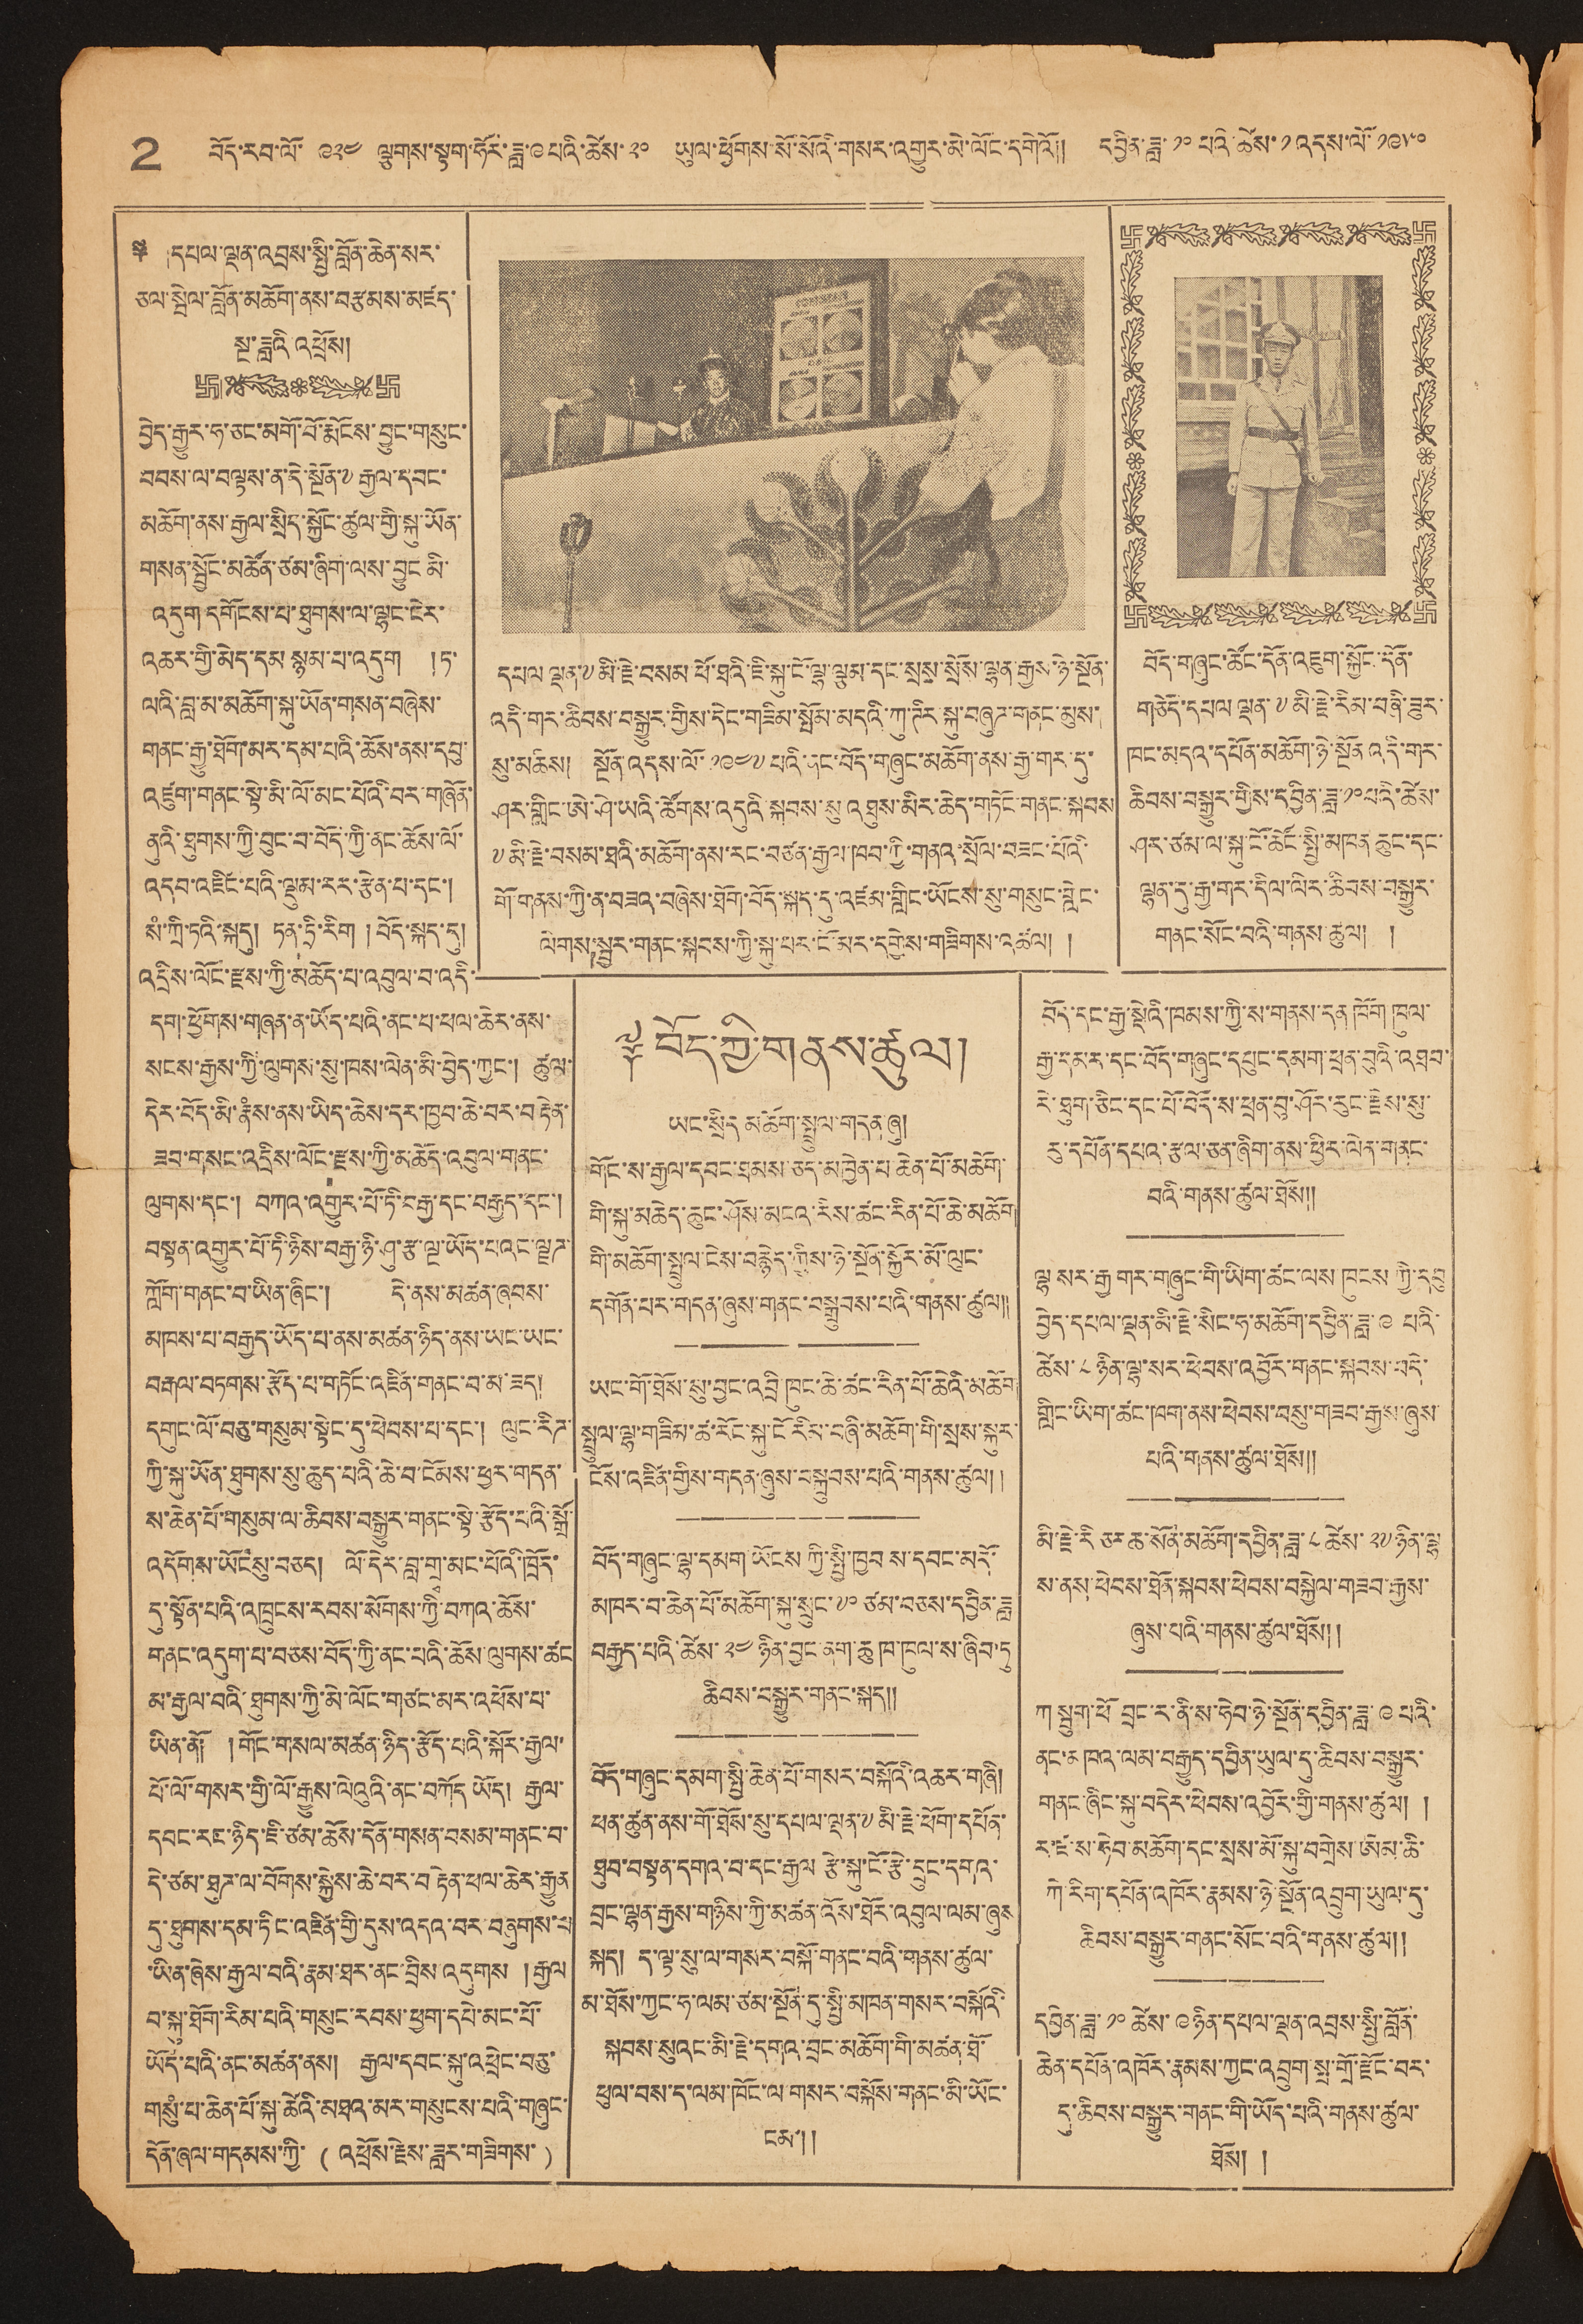2 བོད་རབ་ལོ་ ༩༢༤ ལྕགས་སྟག་ཧོར་ཟླ་ ༩ པའི་ཚེས་ ༢༠ ཡུལ་ཕྱོགས་སོ་སོའི་གསར་འགྱུར་མེ་ལོང་དགེའོ།། དབྱིན་ཟླ་ ༡༠ པའི་ཚེས་ ༡ འདས་ལོ་ ༡༩༥༠
༈ །དཔལ་ལྡན་འབྲས་སྤྱི་འབྲས་བློན་ཆེན་སར་
ཅལ་སྦེལ་བློན་མཆོག་ནས་བརྩམས་མཛད་
སྔ་ཟླའི་འཕྲོས།
བྱེད་རྒྱུར་ཧ་ཅང་མགོ་བོ་རྨོངས་བྱུང་གསུང་
བབས་ལ་བལྟས་ན་དེ་སྔོན་༸རྒྱལ་དབང་
མཆོག་ནས་རྒྱལ་སྲིད་སྐྱོང་ཚུལ་གྱི་སྐུ་ཡོན་
གསན་སྦྱོང་མཚོན་ཙམ་ཞིག་ལས་བྱུང མི་
འདུག་དགོངས་པ་ཐུགས་ལ་ལྷང་ངེར་
འཆར་གྱི་མེད་དམ སྙམ་པ་འདུག །ཏ་
ལའི་བླ་མ་མཆོག་སྐུ་ཡོན་གསན་བཞེས་
གནང་རྒྱུ་ཐོག་མར་དམ་པའི་ཆོས་ནས་དབུ་
འཛུག་གནང་སྟེ་མི་ལོ་མང་པོའི་བར་གཞོན་
ནུའི་ཐུགས་ཀྱི་བུང་བ་བོད་ཀྱི་ནང་ཆོས་ལོ་
འདབ་འཛིང་པའི་ལྡུམ་རར་རྩེན་པ་དང་།
སཾ་ཀྲི་ཏའི་སྐདུ། ཏན་ཏྲི་རིག །བོད་སྐད་དུ།
འདྲིས་ལོང་རྫས་ཀྱི་མཆོད་པ་འབུལ་བ་འདི་
དག་ཕྱོགས་གཞན་ན་ཡོན་པའི་ནང་པ་ཕལ་ཆེར་ནས་
སངས་རྒྱས་ཀྱི་ལུགས་སུ་ཁས་ལེན་མི་བྱེད་ཀྱང་། ཚུལ་
དེར་བོད་མི་རྣཾས་ནས་ཡིད་ཆེས་དར་ཁྱབ་ཆེ་བར་བརྟེན་
ཟབ་གསང་འདྲིས་ལོང་རྫས་ཀྱི་མཆོད་འབུལ་གནང་
ལུགས་དང་། བཀའ་འགྱུར་པོ་ཏི་བརྒྱ་དང་བརྒྱད་དང་།
བསྟན་འགྱུར་པོ་ཏི་ཉིས་བརྒྱ་ཉི་ཤུ་རྩ་ལྔ་ཡོད་པའང་ལྗཊ་
ཀློག་གནང་བ་ཡིན་ཞིང་། དེ་ནས་མཚན་ཞབས་
མཁས་པ་བརྒྱད་ཡོད་པ་ནས་མཚན་ཉིད་ནས་ཡང་ཡང་
བརྒལ་བཏགས་རྩོད་པ་གཏོང་འཛིན་གནང་བ་མ་ཟད།
དགུང་ལོ་བཅུ་གསུམ་སྟེང་དུ་ཕེབས་པ་དང་། ལུང་རིཊ་
ཀྱི་སྐུ་ཡོན་ཐུགས་སུ་ཆུད་པའི་ཆེ་བ་ངོམས་ཕྱར་གདན་
ས་ཆེན་པོ་གསུམ་ལ་ཆིབས་བསྒྱུར་གནང་སྟེ་རྩོད་པའི་སྒྲོ་
འདོགས་ཡོངསུ་བཅད། ལོ་དེར་བླ་གྲྭ་མང་པོའི་ཁྲོད་
དུ་སྟོན་པའི་འཁྲུངས་རབས་སོགས་ཀྱི་བཀའ་ཆོས་
གནང་འདུག་པ་བཅས་བོད་ཀྱི་ནང་པའི་ཆོས་ལུགས་ཚང
མ་རྒྱལ་བའི་ཐུགས་ཀྱི་མེ་ལོང་གཙང་མར་འཕོས་པ་
ཡིན་ནོ། །གོང་གསལ་མཚན་ཉིད་རྩོད་པའི་སྐོར་རྒྱལ་
པོ་ལོ་གསར་གྱི་ལོ་རྒྱུས་ལེའུའི་ནང་བཀོད ཡོད། རྒྱལ་
དབང་རང་ཉིད་ཇི་ཙམ་ཆོས་དོན་གསན་བསམ་གནང་བ་
དེ་ཙམ་ཐུཊ་ལ་བོགས་སྐྱེས་ཆེ་བར་བརྟེན་ཕལ་ཆེར་རྒྱུན་
དུ་ཐུགས་དམ་ཏིང་འཛིན་གྱི་དུས་འདའ་བར་བཞུགས་པ
ཡིན་ཞེས་རྒྱལ་བའི་རྣམ་ཐར་ནང་བྲིས འདུགས །རྒྱལ་
བ་སྐུ་ཐོག་རིམ་པའི་གསུང་རབས་ཕྱག་དཔེ་མང་པོ་
ཡོད་པའི་ནང་མཚན་ནས། རྒྱལ་དབང་སྐུ་འཕྲེང་བཅུ་
གསུཾ་པ་ཆེན་པོ་སྐུ་ཚེའི་མཐའ་མར་གསུངས་པའི་གཞུང་
དོན་ཞལ་གདམས་ཀྱི་ ( འཕྲོས་རྗེས་ཟླར་གཟིགས་ )
དཔལ ལྡན་༸མི་རྗེ་བསམ་ཕོ་ཐའི་ཇི་སྐུ་ངོ་ལྷ་ལྕམ་དང་སྲས་སྲོས་ལྷན་རྒྱས་ཉེ་སྔོན་
འདི་གར་ཆིབས་བསྒྱུར་གྱིས་དེང་གཟིམ་སྤོས་མདའི་ཀུ་ཊིར་སྐུ་བཞུཊ་གནང་མུས་
སུ་མཆིས། སྔོན་འདས་ལོ་ ༡༩༤༧ པའི་ནང་བོད་གཞུང་མཆོག་ནས་རྒྱ་གར་དུ་
ཤར་གླིང་ཨེ་ཤེ་ཡའི་ཚོགས་འདུའི་སྐབས་སུ་འཐུས་མིར་ཆེད་གཏོང་གནང་སྐབས
༸མི་རྗེ་བསམ་ཐའི་མཆོག་ནས་རང་བཙན་རྒྱལ་ཁབ་ཀྱི་གནའ་སྲོལ་བཟང་པོའི་
གོ་གནས་ཀྱི་ན་བཟའ་བཞེས་ཐོག་བོད་སྐད་དུ་འཛམ་གློང་ཡོངས་སུ་གསུང་གླེང་
ལེགས་སྦྱར་གནང་སྐབས་ཀྱི་སྐུ་པར་ངོ་མར་དགྱེས་གཟིགས་མཚལ། །
བོད་གཞུང་ཚོང་དོན་འཇུག་སྐྱོང་དོན་
གཅོད་དཔལ་ལྡན་༸མི་རྗེ་རིམ་བཞི་ཟུར་
ཁང་མདའ་དཔོན་མཆོག་ཉེ་སྔོན འདི་གར་
ཆིབས་བསྒྱུར་གྱིས་དབྱིན་ཟླ་ ༡༠ པའི་ཚེས་
ཤར་ཙམ་ལ་སྐུ་ངོ་ཚོང་སྤྱི་མཁན ཆུང་དང་
ལྷན་དུ་རྒྱ་གར་དིལ་ལིར་ཆིབས་བསྒྱུར་
གནང་སོང་བའི་གནས་ཚུལ། །
༈ བོད་ཀྱི་གནས་ཚུལ།
ཡང་སྲིད མཆོག་སྤྲུལ་གདན་ཞུ།
གོང་ས་རྒྱལ་དབང་ཐམས་ཅད་མཁྱེན་པ་ཆེན་པོ་མཆོག་
གི་སྐུ་མཆེད་ཆུང་ཤོས་མངའ་རིས་ཚང་རིན་པོ་ཆེ་མཆོག
གི་མཆོག་སྤྲུལ་ངེས་བརྙེད་ཀྱིས་ཉེ་སྔོན་སྐྱོར་མོ་ལུང་
དགོན་པར་གདན་ཞུས་གནང་བསྒྲུབས་པའི་གནས་ཚུལ།།
ཡང་གོ་ཐོས་སུ་བྱང་འབྲི་ཁུང་ཆེ་ཚང་རིན་པོ་ཆེའི་མཆོག
སྤྲུལ་ལྷ་གཟིམ་ཚང་རོང་སྐུ་ངོ་རིམ་བཞི་མཆོག་གི་སྲས་སྐུར་
ངོས་འཛིན་གྱིས་གདན་ཞུས་བསྐྲུབས་པའི་གནས་ཚུལ། །
བོད་གཞུང་ལྷ་དམག་ཡོངས ཀྱིས་སྤྱི་ཁྱབ ས་དབང་མདོ་
མཁར་བ་ཆེན་པོ་མཆོག་སྐུ་སྲུང་ ༧༠ ཙམ་བཅས་དབྱིན་ཟླ
བརྒྱད་པའི་ཚེས་ ༢༤ ཉིན་བྱང་ནག་ཆུ ཁ་ཁུལ་ས་ཞིབ་ཏུ་
ཆིབས་བསྒྱུར་གནང་སྐད།།
བོད་གཞུང་དམག་སྤྱི་ཆོན་པོ་གསར་བསྐོའི་འཆར་གཞི།
ཕན་ཚུན་ནས་གོ་ཐོས་སུ་དཔལ་ལྡན་༸མི་རྗེ་ཕོག་དཔོན་
ཐུབ་བསྟན་དགའ་བ་དང་རྒྱལ རྩེ་སྐུ་ངོ་རྩེ་དྲུང་དགའ་
བྲག་ལྷན་རྒྱས་གཉིས་ཀྱི་མཚན་འོས་ཐོར་འབུལ་ལམ་ཞུས
སྐད། ད་ལྟ་སུ་ལ་གསར་བསྐོ་གནང་བའི་གནས་ཚུལ་
མ་ཐོས་ཀྱང་ཧ་ལམ་ཙམ་སྔོན་དུ་སྤྱི་མཁན་གསར་བསྐོའི་
སྐབས་སུའང་མི་རྗེ་དགའ་བྲང་མཆོག་གི་མཚན་ཐོ་
ཕུལ་བས་ད་ལམ་ཁོང་ལ གསར་བསྐོས་གནང་མི་ཡོང་
ངམ་།།
བོད་དང་རྒྱ་སྡེའི་ཁམས་ཀྱི་ས་གནས་དན་ཁོག ཁུལ་
རྒྱ་དམར་དང་བོད་གཞུང་དཔུང་དམག་ཕྲན་བུའི་འཐབ་
རེ་ཐུག་ཅིང་དང་པོ་བོད་ས་ཕྲན་བུ་ཤོར་རུང་རྗེས་སུ་
རུ་དཔོན་དཔའ་རྩལ་ཅན་ཞིག་ནས་ཕྱིར་ལེན་གནང་
བའི་གནས་ཚུལ་ཐོས།།
ལྷ སར་རྒྱ གར་གཞུང་གི་ཡིག་ཚང་ལས་ཁུངས ཀྱི་དབུ
བྱེད་དཔལ་ལྡན་མི་རྗེ་སིང་ཧ་མཆོག་དབྱིན་ཟླ་ ༩ པའི་
ཚེས་ ༨ ཉིན་ལྷ་སར་ཕེབས་འབྱོར་གནང་སྐབས་བདེ་
གླིང་ཡིག་ཚང་ཁག་ནས་ཕེབས་བསུ་གཟབ་རྒྱས་ཞུས་
པའི་གནས་ཚུལ་ཐོས།།
མི་རྗེ་རི ཅར ཆ་སོན་མཆོག་དབྱིན་ཟླ་ ༨ ཚེས་ ༢༧ ཉིན་ལྷ
ས་ནས་ཕེབས་ཐོན་སྐབས་ཕེབས་བསྐྱེལ་གཟབ་རྒྱས་
ཞུས་པའི་གནས་ཚུལ་ཐོས།།
ཀ སྦུག་ཕོ བྲང་ར་ནི་ས་ཧེབ་ཉེ་སྔོན་དབྱིན་ཟླ་ ༩ པའི་
ནང་མཁའ་ལམ་བརྒྱུད་དབྱིན་ཡུལ་དུ་ཆིབས་བསྒྱུར་
གནང་ཞིང་སྐུ་བདེར་ཕེབས་འབྱོར་གྱི་གནས་ཚུལ། །
ར་ཛ་ས་ཧེབ་མཆོག་དང་སྲས་མོ་སྐུ་བགྲེས་ཨེམ་ཆི་
ཀེ་རིག་དཔོན་འཁོར་རྣམས་ཉེ་སྔོན་འབྲུག་ཡུལ་དུ་
ཆིབས་བསྒྱུར་གནང་སོང་བབའི་གནས་ཚུལ།།
དབྱིན་ཟླ་ ༡༠ ཚེས་ ༩ ཉིན་དཔལ་ལྡན་འབྲས་སྤྱི་བློན་
ཆེན་དཔོན་འཁོར་རྣམས་ཀྱང་འབྲུག་སྤ་གྲོ་རྫོང་བར་
དུ་ཆིབས་བསྒྱུར་གནང་གི་ཡོད་པའི་གནས་ཚུལ་
ཐོས། །
